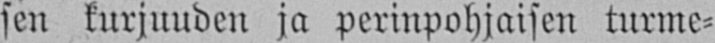sen kurjuuden ja perinpohjaisen turme-
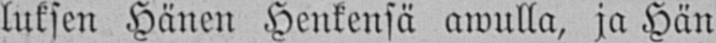luksen Hänen Henkensä awulla, ja Hän
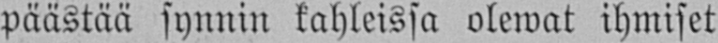päästää synnin kahleissa olewat ihmiset
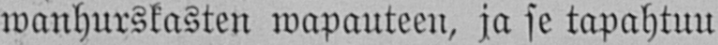wanhurskasten wapauteen, ja se tapahtuu
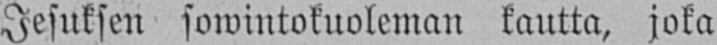Jesuksen sowintokuoleman kautta, joka
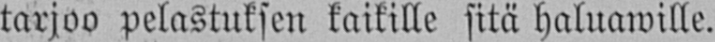tarjoa pelastuksen kaikille sitä haluawille.
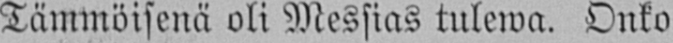Tämmöisenä oli Messias tulewa. Onko
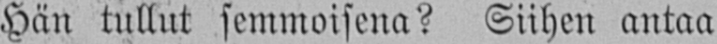Hän tullut semmoisena? Siihen antaa
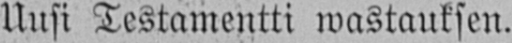Uusi Testamentti wastauksen.
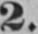2.
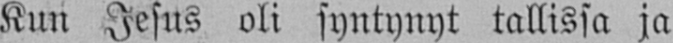Kun Jesus oli syntynyt tallissa ja
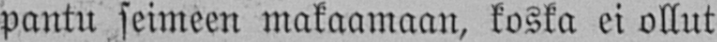pantu seimeen makaamaan, koska ei ollut
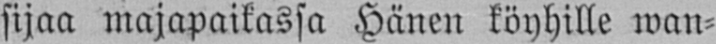sijaa majapaikassa Hänen köyhille wan-
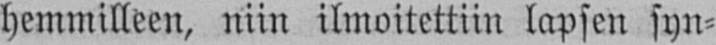hemmilleen, niin ilmoitettiin lapsen syn-
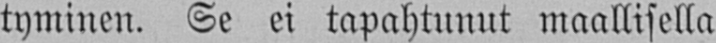tyminen. Se ei tapahtunut maallisella
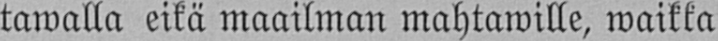tawalla eikä maailman mahtawille, waikka
